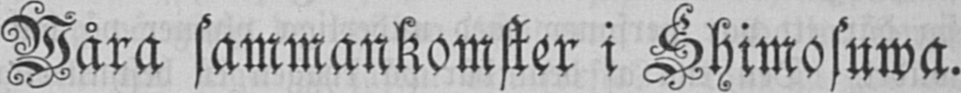Wåra sammankomster i Shimosuwa.
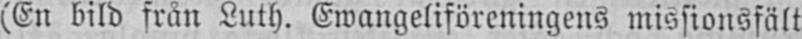(En bild från Luth. Ewangeliföreningens missionsfält
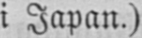i Japan.)
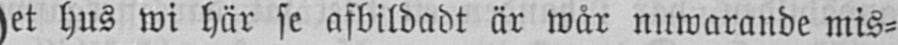et hus wi här se afbildadt är wår nuwarande mis-
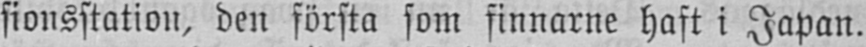sionsstation, den första som finnarne haft i Japan.
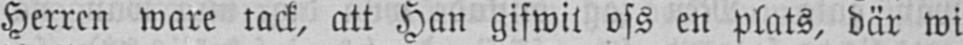Herren ware tack, att Han gifwit oss en plats, där wi
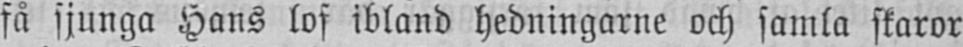få sjunga Hans lof ibland hedningarne och samla skaror
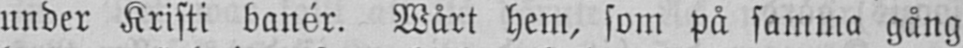under Kristi banér. Wårt hem, som på samma gång
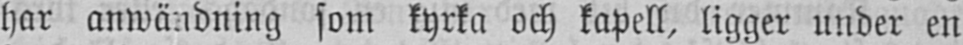har anwändning som kyrka och kapell, ligger under en
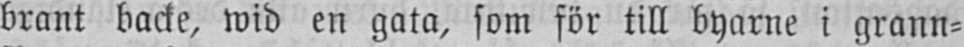brant backe, wid en gata, som för till byarne i grann-
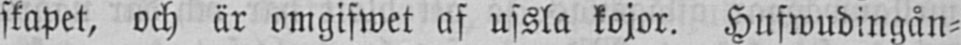skapet, och är omgifwet af ussla kojor. Hufwudingån-
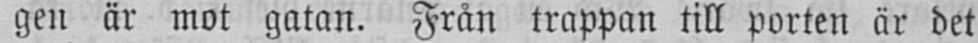gen är mot gatan. Från trappan till porten är det
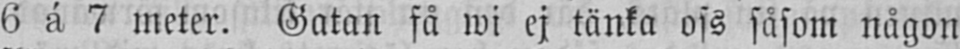6 á 7 meter. Gatan få wi ej tänka oss såsom någon
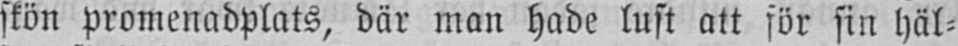skön promenadplats, där man hade lust att för sin häl-
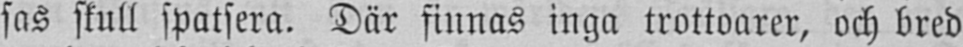sas skull spatsera. Där finnas inga trottoarer, och bred
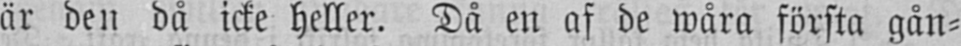är den då icke heller. Då en af de wåra första gån-
